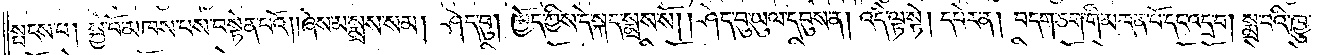སྤངས་པ། སྐྱེ་བོ་མཁས་པས་བསྟེན་པའོ། །ཞེས་མ་སྨྲས་སམ། ཤེད་བུ། ཁྱོད་ཀྱིས་དེ་སྐད་སྨྲས་སོ། །ཤེད་བུ་ཡུལ་དབུས་ན། འདི་ལྟ་སྟེ། དཔེར་ན། བདག་ཅག་གི་མཁན་པོ་དང་འདྲ་བ། སྨྲ་བའི་ཁྱུ་
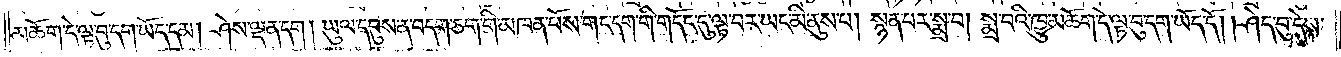མཆོག་དེ་ལྟ་བུ་དག་ཡོད་དམ། ཤེས་ལྡན་དག། ཡུལ་དབུས་ན་བདག་ཅག་གི་མཁན་པོས་གང་དག་གི་གདོང་དུ་ལྟ་བར་ཡང་མི་ནུས་པ། སྙན་པར་སྨྲ་བ། སྨྲ་བའི་ཁྱུ་མཆོག་དེ་ལྟ་བུ་དག་ཡོད་དོ། །ཤེད་བུ་དེས་
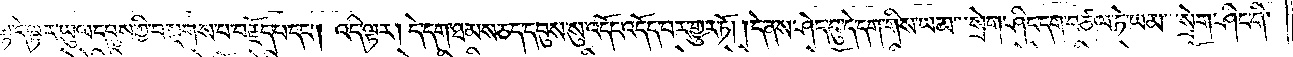དེ་དག་ལ་དེ་ལྟ་དེ་ལྟར་ཡུལ་དབུས་ཀྱི་བསྔགས་པ་བརྗོད་པ་དང༌། འདི་ལྟར། དེ་དག་ཐམས་ཅད་དབུས་སུ་འདོང་འདོད་པར་གྱུར་ཏོ། །དེ་ནས་ཤེད་བུ་དེ་དག་གིས་ཡམ་སྲེག་ཤིང་དག་བཙལ་ཏེ་ཡམ་སྲེག་ཤིང་གི་
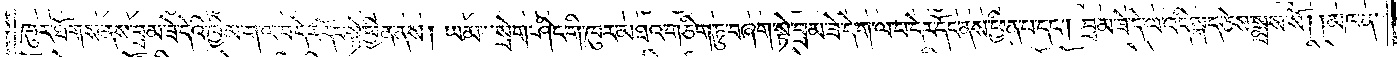ཁུར་ཐོགས་ནས་བྲམ་ཟེ་དེའི་ཁྱིམ་ག་ལ་བ་དེར་དོང་སྟེ་ཕྱིན་ནས། ཡམ་སྲེག་ཤིང་གི་ཁུར་མཐའ་གཅིག་ཏུ་བཞག་སྟེ་བྲམ་ཟེ་དེ་ག་ལ་བ་དེར་དོང་ནས་ཕྱིན་པ་དང༌། བྲམ་ཟེ་དེ་ལ་འདི་སྐད་ཅེས་སྨྲས་སོ། །མཁན་
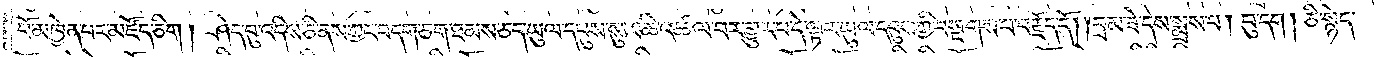པོ་མཁྱེན་པར་མཛོད་ཅིག །ཤེད་བུ་འདིས་ཅི་ནས་ཀྱང་བདག་ཅག་ཐམས་ཅད་ཡུལ་དབུས་སུ་མཆི་འཚལ་བར་གྱུར་པ་དེ་ལྟར་ཡུལ་དབུས་ཀྱི་བསྔགས་པ་བརྗོད་དོ། །བྲམ་ཟེ་དེས་སྨྲས་པ། བུ་དག། ཅི་སྙེད་
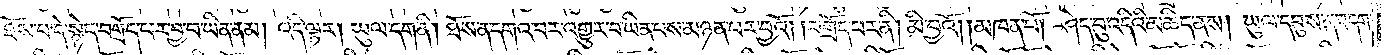ཐོས་པ་དེ་སྙེད་བགྲོད་པར་བྱ་བ་ཡིན་ནམ། འདི་ལྟར། ཡུལ་དག་ནི། ཐོས་ན་དགའ་བར་འགྱུར་བ་ཡིན་པས་མཉན་པར་བྱའོ། །བགྲོད་པར་ནི། མི་བྱའོ། །མཁན་པོ། ཤེད་བུ་འདིའི་མཆིད་ནས། ཡུལ་དབུས་ན་བདག་
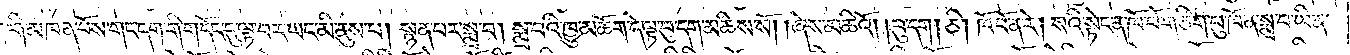ཅག་གི་མཁན་པོས་གང་དག་གི་གདོང་དུ་ལྟ་བར་ཡང་མི་ནུས་པ། སྙན་པར་སྨྲ་བ། སྨྲ་བའི་ཁྱུ་མཆོག་དེ་ལྟ་བུ་དག་མཆིས་སོ། །ཞེས་མཆིའོ། །བུ་དག །ཅི། ཁོ་བོ་ན་རེ། སའི་སྟེང་ན་ཁོ་བོ་གཅིག་པུ་ཁོ་ན་སྨྲ་བ་ཡིན་
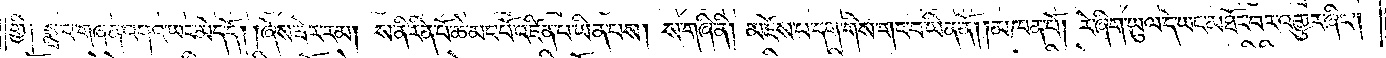གྱི༑ སྨྲ་བ་གཞན་འགའ་ཡང་མེད་དོ། །ཞེས་ཟེར་རམ། ས་ནི་རིན་པོ་ཆེ་མང་པོ་འཛིན་པ་ཡིན་པས། ས་གཞི་ནི། མཛེས་པ་དག་གིས་གང་བ་ཡིན་ནོ། །མཁན་པོ། རེ་ཞིག་ཡུལ་དེ་ཡང་མཐོང་བར་འགྱུར་ཞིང༌།
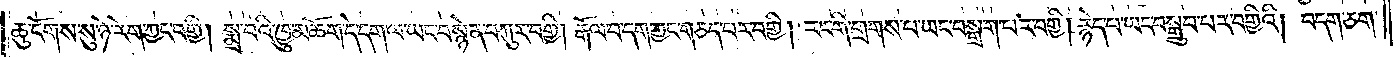ཆུ་ངོགས་སུ་ཉེ་རེག་ཀྱང་བགྱི། སྨྲ་བའི་ཁྱུ་མཆོག་དེ་དག་ལ་ཡང་བསྙེན་བཀུར་བགྱི། རྒོལ་བ་དག་ཀྱང་གཅད་པར་བགྱི། རང་གི་གྲགས་པ་ཡང་བསྒྲག་པར་བགྱི། རྙེད་པ་ཡང་བསྒྲུབ་པར་བགྱིའི། བདག་ཅག་
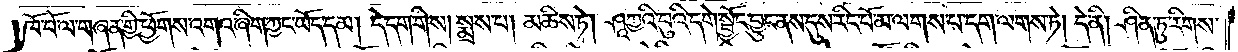ཁོ་བོ་ལ་གཞན་གྱི་ཕྱོགས་འགའ་ཞིག་ཀྱང་ཡོད་དམ། དེ་དག་གིས། སྨྲས་པ། མཆིས་ཏེ། ཤཱཀྱའི་བུའི་དགེ་སྦྱོང་བྱུང་ནས་དུས་རིང་པོ་མ་ལགས་པ་དག་ལགས་ཏེ། དེ་ནི། ཤིན་ཏུ་རིགས་
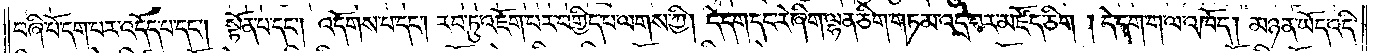བཞི་པོ་དག་པར་འདོད་པ་དང༌། སྟོན་པ་དང༌། འདོགས་པ་དང༌། རབ་ཏུ་འཇོག་པར་བགྱིད་པ་ལགས་ཀྱི། དེ་དག་དང་རེ་ཞིག་ལྷན་ཅིག་གཏམ་འདྲེ་བར་མཛོད་ཅིག །དེ་དག་ག་ལ་འཁོད། མཉན་ཡོད་འདི་
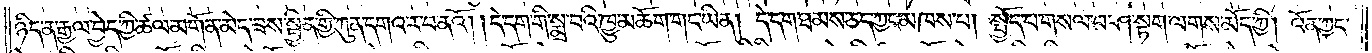ཉིད་ན་རྒྱལ་བྱེད་ཀྱི་ཚལ་མགོན་མེད་ཟས་སྦྱིན་གྱི་ཀུན་དགའ་ར་བ་ནའོ། །དེ་དག་གི་སྨྲ་བའི་ཁྱུ་མཆོག་གང་ཡིན། དེ་དག་ཐམས་ཅད་ཀྱང་མཁས་པ། སྤྱོད་པ་གསལ་བ་ཤ་སྟག་ལགས་མོད་ཀྱི། འོན་ཀྱང་
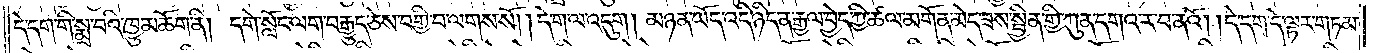དེ་དག་གི་སྨྲ་བའི་ཁྱུ་མཆོག་ནི། དགེ་སློང་ལག་བརྒྱུད་ཅེས་བགྱི་བ་ལགས་སོ། །དེ་ག་ལ་འདུག། མཉན་ཡོད་འདི་ཉིད་ན་རྒྱལ་བྱེད་ཀྱི་ཚལ་མངོན་མེད་ཟས་སྦྱིན་གྱི་ཀུན་དགའ་ར་བ་ནའོ། །དེ་དག་དེ་ལྟར་གཏམ་
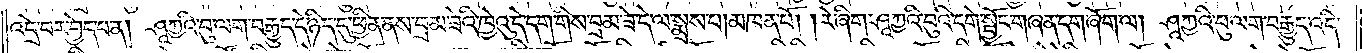འདྲེ་བར་བྱེད་པ་ན། ཤཱཀྱའི་བུ་ལག་བརྒྱུད་དེ་ཉིད་དུ་ཕྱིན་ནས་བྲམ་ཟེའི་ཁྱེའུ་དེ་དག་གིས་བྲམ་ཟེ་དེ་ལ་སྨྲས་པ། མཁན་པོ། །རེ་ཞིག་ཤཱཀྱའི་བུའི་དགེ་སྦྱོང་གཞན་དག་ཞོག་ལ། ཤཱཀྱའི་བུ་ལག་བརྒྱུད་འདི་
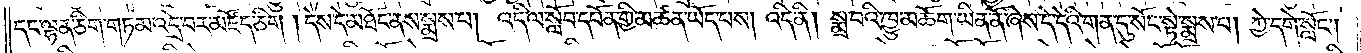དང་ལྷན་ཅིག་གཏམ་འདྲེ་བར་མཛོད་ཅིག །དེས་དེ་མཐོང་ནས་སྨྲས་པ། འདི་ལ་སློབ་དཔོན་གྱི་མཚན་ཡོད་པས། འདི་ནི། སྨྲ་བའི་ཁྱུ་མཆོག་ཡིན་ནོ་ཞེས་དེ་དེའི་གན་དུ་སོང་སྟེ་སྨྲས་པ། ཀྱེ་དགེ་སློང༌།
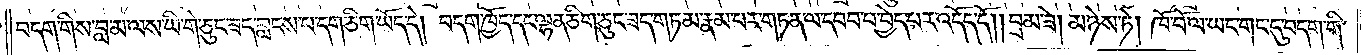བདག་གིས་བླ་མ་ལས་ཡི་གེ་ཅུང་ཟད་བླངས་པ་དག་ཅིག་ཡོད་དེ། བདག་ཁྱོད་དང་ལྷན་ཅིག་ཅུང་ཟད་གཏམ་རྣམ་པར་གཏན་ལ་དབབ་པ་བྱེད་པར་འདོད་དོ། །བྲམ་ཟེ། མ་ཉེས་ཏེ། ཁོ་བོ་ལ་ཡང་གང་དུ་བདག་གི་
